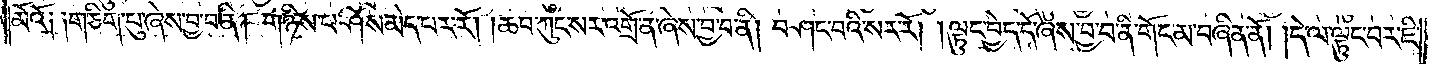མོའོ༑ ༑གཅིག་པུ་ཞེས་བྱ་བ་ནི། གཉིས་པ་ཤོས་མེད་པར་རོ། །ཆབ་ཀུང་སར་འགྲོ་ན་ཞེས་བྱ་བ་ནི། བཤང་བའི་སར་རོ། །ལྟུང་བྱེད་དོ་ཞེས་བྱ་བ་ནི་གོང་མ་བཞིན་ནོ། །དེ་ལ་ལྟུང་བར་ཇི་
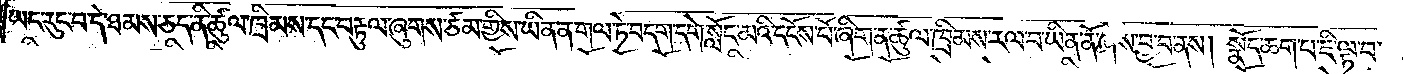ཡང་རུང་བ་དེ་ཐམས་ཅད་ནི་ཚུལ་ཁྲིམས་དང་བརྟུལ་ཞུགས་ཙམ་གྱིས་ཡིན་ན་གལ་ཏེ་བདག་དགེ་སློང་མའི་དངོས་པོ་ཞིག་ན་ཚུལ་ཁྲིམས་རལ་པ་ཡིན་ནོ་ཞེས་བྱ་བ་ནས། སྣོད་ཆག་པ་ཇི་ལྟ་བ་
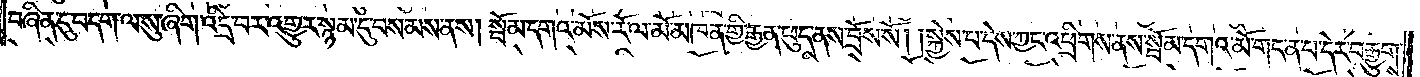བཞིན་དུ་བདག་ལ་སུ་ཞིག་འདྲི་བར་འགྱུར་སྙམ་དུ་བསམས་ནས། སྦོམ་དགའ་མོས་རོ་ལ་མོ་མཁན་གྱི་རྒྱན་ཕུད་ནས་བྲོས་སོ། །སྐྱེས་པ་དེས་ཀྱང་འཕྲིགས་ནས་སྦོམ་དགའ་མོ་གང་ན་བ་དེར་བརྒྱུགས་
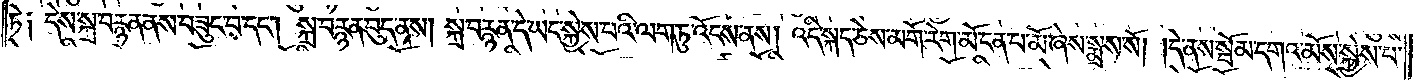ཏེ༑ དེས་སྐྲ་བརྙན་ནས་བཟུང་བ་དང༌། སྐྲ་བརྙན་བུད་ནས། སྐྲ་བརྙན་དེ་ཡང་སྐྱེས་པའི་ལག་ཏུ་འོངས་ནས། འདི་སྐད་ཅེས་མགོ་རེག་མོ་ངན་པ་མོ་ཞེས་སྨྲས་སོ། །དེ་ནས་སྦོམ་དགའ་མོས་སྐྱེས་པ་
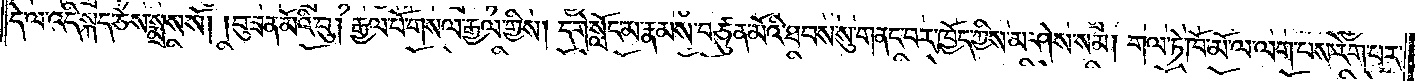དེ་ལ་འདི་སྐད་ཅེས་སྨྲས་སོ། །བུ་ཟན་མོའི་བུ། རྒྱལ་པོ་གསལ་རྒྱལ་གྱིས། དགེ་སློང་མ་རྣམས་བཙུན་མོའི་ཐབས་སུ་གནང་བར་ཁྱོད་ཀྱིས་མ་ཤེས་སམ། གལ་ཏེ་ཁོ་མོ་ལ་ལག་པས་རེག་པར་
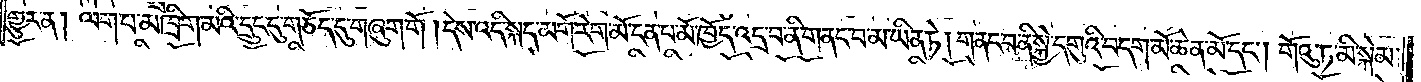གྱུར་ན། ལག་པ་མཁྲིག་མའི་དྲུང་དུ་གཅོད་དུ་གཞུག་གོ །དེས་འདི་སྐད་མགོ་རེག་མོ་ངན་པ་མོ་ཁྱོད་འདྲ་བ་ནི་གནང་བ་མ་ཡིན་ཏེ། གནང་བ་ནི་སྐྱེ་དགུའི་བདག་མོ་ཆེན་མོ་དང༌། གོའུ་ཏ་མི་སྐེམ་
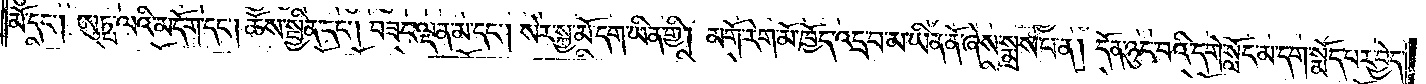མོ་དང༌། ཨུཏྤ་ལའི་མདོག་དང༌། ཆོས་སྦྱིན་དང༌། བཟང་ལྡན་མ་དང༌། སེར་སྐྱ་མོ་དག་ཡིན་གྱི། མགོ་རེག་མོ་ཁྱོད་འདྲ་བ་མ་ཡིན་ནོ་ཞེས་སྨྲས་པ་ན། དོན་ཉུང་བའི་དགེ་སློང་མ་དག་སྨོད་པར་བྱེད་
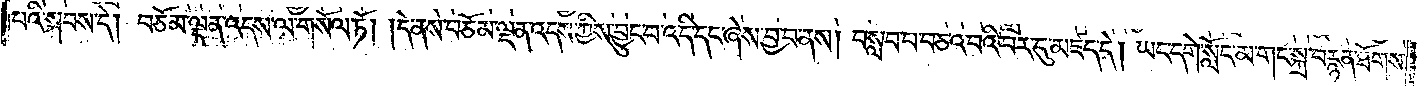པའི་སྐབས་དེ། བཅོམ་ལྡན་འདས་ལ་གསོལ་ཏོ། །དེ་ནས་བཅོམ་ལྡན་འདས་ཀྱིས་བྱུང་བ་འདི་དང་ཞེས་བྱ་བ་ནས། བསླབ་པ་བཅའ་བའི་བར་དུ་མཛད་དེ། ཡང་དགེ་སློང་མ་གང་སྐྲ་བརྙན་ཐོགས་
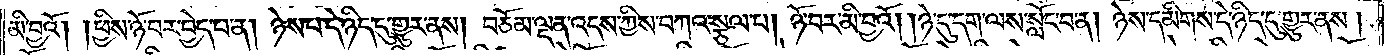མི་བྱའོ། །ཕྱིས་ཉོ་བར་བྱེད་པ་ན། ཉེས་པ་དེ་ཉིད་དུ་གྱུར་ནས། བཅོམ་ལྡན་འདས་ཀྱིས་བཀའ་སྩལ་པ། ཉོ་བར་མི་བྱའོ། །ཉེ་དུ་དག་ལས་སློང་བ་ན། ཉེས་དམིགས་དེ་ཉིད་དུ་གྱུར་ནས།
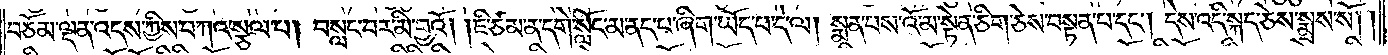བཅོམ་ལྡན་འདས་ཀྱིས་བཀའ་སྩལ་པ། བསླང་བར་མི་བྱའོ། །ཇི་ཙམ་ན་དགེ་སློང་མ་ནད་པ་ཞིག་ཡོད་པ་དེ་ལ། སྨན་པས་འོ་མ་སྟེན་ཅིག་ཅེས་བསྟན་པ་དང༌། དེས་འདི་སྐད་ཅེས་སྨྲས་སོ། །
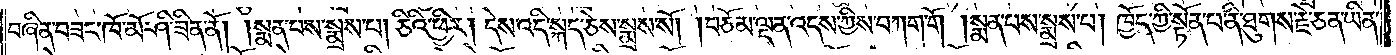བཞིན་བཟང་ཁོ་མོ་ཤི་ཟིན་ནོ། །སྨན་པས་སྨྲས་པ། ཅིའི་ཕྱིར། དེས་འདི་སྐད་ཅེས་སྨྲས་སོ། །བཅོམ་ལྡན་འདས་ཀྱིས་བཀག་གོ །སྨན་པས་སྨྲས་པ། ཁྱོད་ཀྱི་སྟོན་པ་ནི་ཐུགས་རྗེ་ཅན་ཡིན་
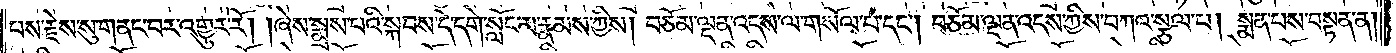པས་རྗེས་སུ་གནང་བར་འགྱུར་རོ། །ཞེས་སྨྲས་པའི་སྐབས་དེ་དགེ་སློང་མ་རྣམས་ཀྱིས། བཅོམ་ལྡན་འདས་ལ་གསོལ་པ་དང༌། བཅོམ་ལྡན་འདས་ཀྱིས་བཀའ་སྩལ་པ། སྨན་པས་བསྟན་ན།
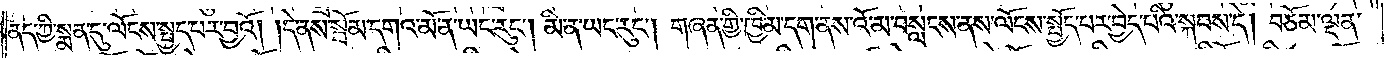ནད་ཀྱི་སྨན་དུ་ལོངས་སྤྱད་པར་བྱའོ། །དེ་ནས་སྦོམ་དགའ་མོ་ན་ཡང་རུང༌། མི་ན་ཡང་རུང༌། གཞན་གྱི་ཁྱིམ་དག་ནས་འོ་མ་བསླངས་ནས་ལོངས་སྤྱོད་པར་བྱེད་པའི་སྐབས་དེ། བཅོམ་ལྡན་
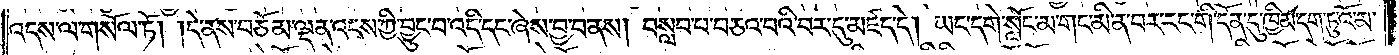འདས་ལ་གསོལ་ཏོ། །དེ་ནས་བཅོམ་ལྡན་འདས་ཀྱི་བྱུང་བ་འདི་དང་ཞེས་བྱ་བ་ནས། བསླབ་པ་བཅའ་བའི་བར་དུ་མཛད་དེ། ཡང་དགེ་སློང་མ་གང་མི་ན་བར་རང་གི་དོན་དུ་ཁྱིམ་དག་ཏུ་འོ་མ་
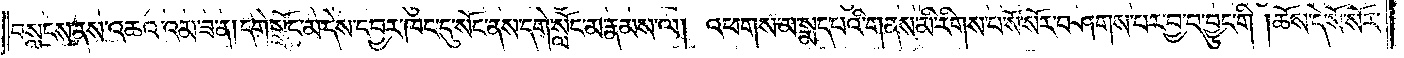བསླངས་ནས་འཆའ་འམ་ཟ་ན། དགེ་སློང་མ་དེས་དབྱར་ཁང་དུ་སོང་ནས་དགེ་སློང་མ་རྣམས་ལ། འཕགས་མ་སྨད་པའི་གནས་མི་རིགས་པ་སོ་སོར་བཤགས་པར་བྱ་བ་བྱུང་གི །ཆོས་དེ་སོ་སོར་
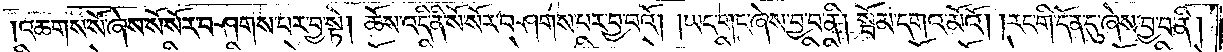།འཆགས་སོ་ཞེས་སོ་སོར་བཤགས་པར་བྱ་སྟེ། ཆོས་འདི་ནི་སོ་སོར་བཤགས་པར་བྱ་བའོ། །ཡང་གང་ཞེས་བྱ་བ་ནི། སྦོམ་དགའ་མོའོ། །རང་གི་དོན་དུ་ཞེས་བྱ་བ་ནི།
